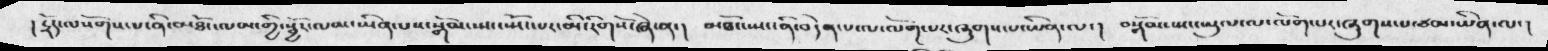།དྲོད་ལསོགས་པ་ནི་མཐོང་ལམ་གྱི་སྦྱོར་ལམ་ཡིན་པས་སྒོམ་སྤང་སྤོང་པར་མི་རིགསོ་ཞེ་ན་།  མཐོང་སྤང་ནི་བདེན་པ་ལ་ལོག་པར་ཞུགས་པ་ཡིན་ལ་།  བསྒོམ་སྤང་ཡུལ་ལ་ལོག་པར་ཞུགས་པ་ཙམ་ཡིན་ལ་།
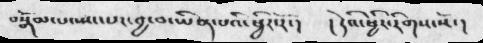བསྒོམ་པ་སྤང་པར་བྱ་བ་ཡིན་པའི་ཕྱིར་རོ་།  །དེའི་ཕྱིར་རིགས་སོ་།
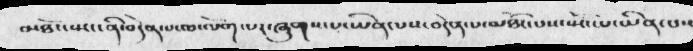མཐོང་སྤང་ནི་བདེན་པ་ལ་ལེག་པར་ཞུགས་པ་ཡིན་པས་བདེན་པ་མཐོང་པས་སྤོང་པ་ཡིན་པ་
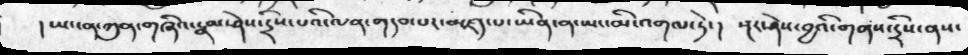།ཡང་ན་ཀུན་གཞིའ་རྣམ་ཤེས་དྲིས་པའི་ལན་གདབ་པར་མཛད་པ་ཡིན་ན་ཡང་མི་འགལ་ཏེ་།  སྔར་ཤེས་བྱའི་གནས་དྲིས་ནས་
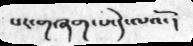པར་གཞག་པ་དེ་ལའོ་།
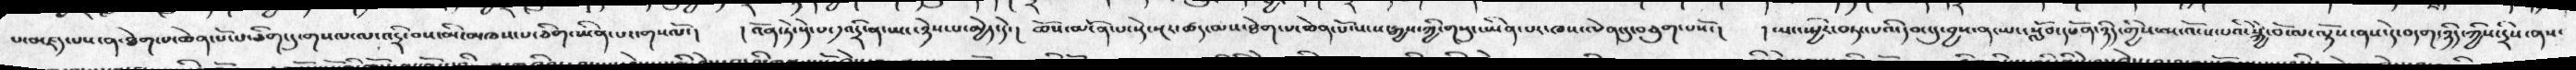པ་མཛད་པས་ན་ཐེག་པ་ཆེན་པོ་པ་ཅིག་དུ་གསལ་ལ་འདྲི་བས་མི་མཁས་པ་ཅིག་ཡིན་པ་གསལོ་།  ། འོན་ཏེ་སྡེ་པ་༡འདྲི་ན་ཡང་ཉེས་པ་མྱེད་དེ་།   ཆོས་མངོན་པ་སྡེ་སྔར་ཚད་མས་ཐེག་པ་ཆེན་པོ་སངས་རྒྱས་ཀྱི་གསུང་ཡིན་པ་ཁས་ལེན་དུ་བཅུག་པོས་།  ། ཡང་སྤྱིར་བཏང་པའི་དམ་དུ་བྱས་ན་ཡང་སློབ་དཔོན་ཉིད་གྱིས་མ་འོངས་པའི་སྐྱེ་བོ་ལ་ལྟོས་ན་དེ་བདག་ཉིད་ཀྱིས་དྲིས་ནས་
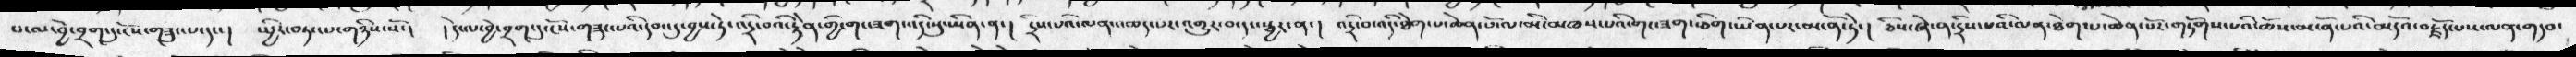པ་ལ་བྱེ་བྲག་དུ་ངོས་གཟུང་པ་དང་།  སྤྱིར་བཏང་པ་གཉིས་སོ་།  །དེ་ལ་བྱེ་བྲག་དུ་ངོས་གཟུང་པའི་དབང་དུ་བྱས་ཏེ་འདྲི་བའི་རྟེན་གྱི་གང་ཟག་དེ་སུ་ཡིན་ན་། དྲིས་པའི་ལན་འཆད་པར་འགྱུར་བ་དང་སྦྱར་ན་། འདྲི་བ་འདི་ཐེག་པ་ཆེན་པོ་ལ་མཁས་པའི་གང་ཟག་ཅིག་ཡིན་པར་མངོན་ཏེ་།  ཅིས་ཞེ་ན་དྲིས་པའི་ལན་ཐེག་པ་ཆེན་པོར་གཏོགས་པའི་ཆོས་མངོན་པའི་མདོའ་བརྗོད་པས་ལན་གདབ་
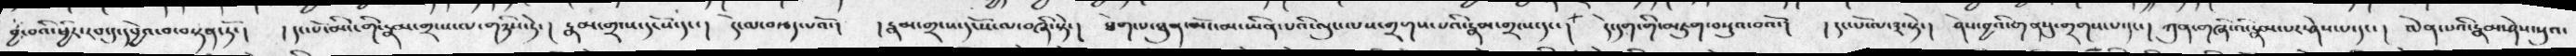བྱ་བའི་ཕྱིར་རབ་དུ་དབྱེའ་བ་བསྟན་ཏོ་།  ། དང་པོ་མིང་གི་རྣམ་གྲངས་ལ་གཉིས་ཏེ་ །  རྣམ་གྲངས་དངོས་དང་།  དེ་མ་བརྩད་པའོ་།  ། རྣམ་གྲངས་དངོས་མ་བཞི་སྟེ་།  ཐེག་པ་ཐུན་མོང་མ་ཡིན་པའི་ལུང་ལས་གྲགས་པའི་རྣམ་གྲངས་དང་།  དེ་དག་གི་མཇུག་བསྡུའ་བའོ་།  ། དང་པོ་ལ་༣་སྟེ་།  ཤེས་བྱའི་གནསུ་གྲགས་པ་དང་།  ཀུན་གཞིའི་རྣམ་པར་ཤེས་པ་དང་།  ལེན་པའི་རྣམ་ཤེས་སུའ་
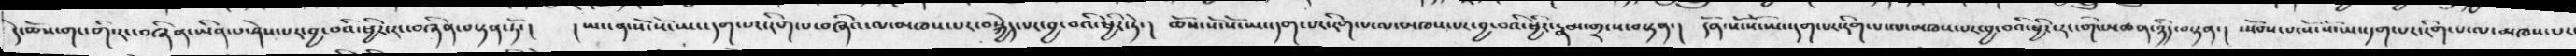དེ་ཆོས་གང་གི་རང་བཞིན་ཡིན་པ་ཤེས་པར་བྱ་བའི་ཕྱིར་རང་བཞིན་བསྟན་ཏོ་།  །ཡང་ན་སོ་སོ་ཡང་དག་པར་རིག་པ་བཞིའ་ལ་མཁས་པར་བསྐྱེད་པར་བྱ་བའི་ཕྱིར་ཏེ་། ཆོས་སོ་སོ་ཡང་དག་པར་རིག་པ་ལ་མཁས་པར་བྱ་བའི་ཕྱིར་རྣམ་གྲངས་བསྟན་། དོན་སོ་སོ་ཡང་དག་པར་རིག་པ་ལ་མཁས་པར་བྱ་བའི་ཕྱིར་རང་གི་མཚན་ཉིད་བསྟན་། སྤོབས་པ་སོ་སོ་ཡང་དག་པར་རིག་པ་ལ་མཁས་པར་
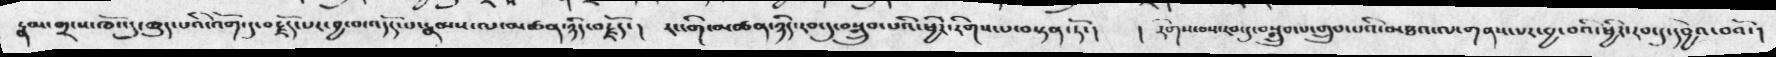རྣམ་གྲངས་ཁོང་དུ་ཆུད་པའི་འོག་དུ་བརྗོད་པར་བྱ་བ་འདོད་པ་རྣམས་ལ་མཚན་ཉིད་བརྗོད་།  རང་གི་མཚན་ཉིད་རབ་དུ་བསྒྲུབ་པའི་ཕྱིར་རིགས་པ་བསྟན་ཏོ་།  ། རིགས་བས་རབ་དུ་བསྒྲུབ་པ་གྲུབ་པའི་མཐའ་ལ་གནས་པར་བྱ་བའི་ཕྱིར་རབ་དུ་དབྱེའ་བའོ་།
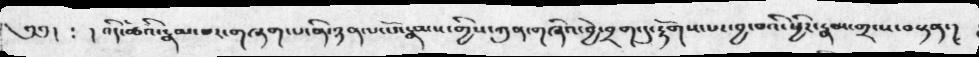༄༅།  ༴  །འདི་ཚེའི་རྣམ་པར་གཞག་པ་ནི་ཉན་པ་པོ་རྣམས་གྱིས་ཀུན་གཞིའ་བྱེ་བྲག་དུ་རྟོགས་པར་བྱ་བའི་ཕྱིར་རྣམ་གྲངས་བསྟན་།
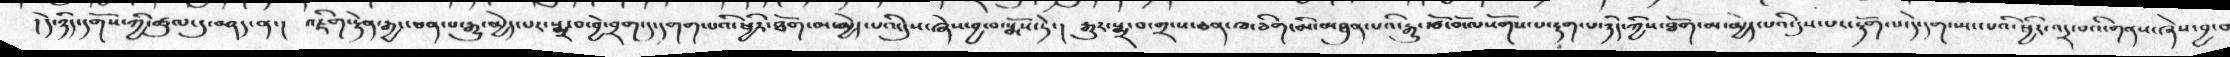།དེ་ཉིད་དགོས་ཀྱི་ཚུལ་དུ་བཤད་ན་། འཇིག་རྟེན་རྒྱ་ཅན་པ་རྒྱུ་མྱེད་པར་སྨྲ་བ་བྱེ་བྲག་དུ་དགག་པའི་ཕྱིར་ཐོག་མ་མེད་པའི་དུས་ཞེས་བྱ་བ་སྨོས་ཏེ་། རྒྱུར་སྨྲ་བ་གྲངས་ཅན་ཁ་ཅིག་མི་མཐུན་པའི་རྒྱུ་རྩོ་བོ་ལསོགས་པ་རྟག་པ་ཉིད་ཀྱིས་ཐོག་མ་མྱེད་པའི་དུས་པར་རྟོག་པ་དེ་དག་སྤང་པའི་ཕྱིར་འདྲ་པའི་གནས་ཞེས་བྱ་བ
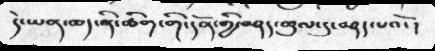དེ་ཡན་ཆད་ནི་ཚིག་གི་དོན་གྱི་བཤད་ཚུལ་དུ་བཤད་པའོ་།
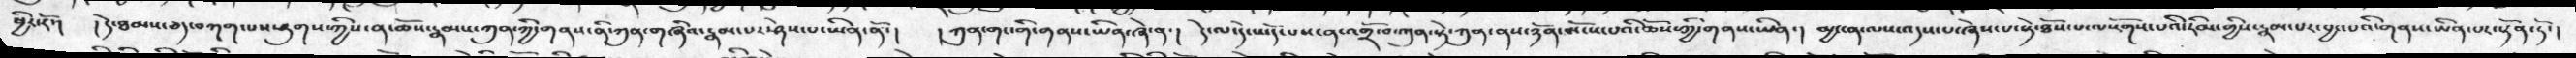ཕྱིར་རོ་།  །དེ་ཐམས་ཅད་བཀག་པས་ཕུགས་ཀྱིས་ན་ཆོས་རྣམས་ཀུན་ཀྱི་གནས་ནི་ཀུན་གཞིའ་རྣམ་པར་ཤེས་པ་ཡིན་ནོ་། ཀུན་གང་གི་གནས་ཡིན་ཞེ་ན་། དེ་ལ་དེ་ཡོད་པས་ན་འགྲོ་བ་ཀུན་སྟེ་ཀུན་ནས་ཉོན་མོངས་པའི་ཆོས་ཀྱི་གནས་ཡིན་།  མྱ་ངན་ལས་འདས་པ་ཞེས་པ་སྟེ་ཐོས་པ་ལསོགས་པའི་རིམ་གྱིས་རྣམ་པར་བྱང་པའི་གནས་ཡིན་པར་སྟོན་ཏོ་།
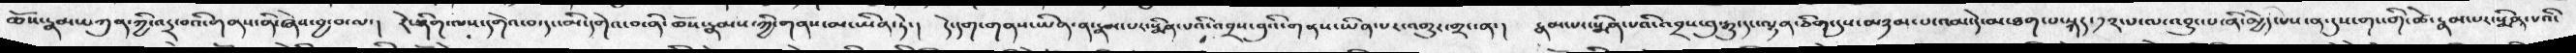ཆོས་རྣམས་ཀུན་ཀྱི་འདྲ་བའི་གནས་ནི་ཞེས་བྱ་བ་ལ་།  རེ་སྡིག་ལས་དགེ་བ་དང་མི་དགེ་བ་ནི་ཆོས་རྣམས་ཀྱི་གནས་མ་ཡིན་ཏེ་། དེ་དག་གནས་ཡིན་ན་རྣམ་པར་སྨིན་པའི་འབྲས་བུའི་གནས་ཡིན་པར་འགྱུར་གྲང་ན་། རྣམ་པར་སྨིན་པའི་འབྲས་བུ་རྒྱུ་དང་ལྷན་ཅིག་དུས་མཉམ་པ་འམ་དེ་མ་ཐག་པ་སྐད་༡༢་པ་ལ་འབྱུང་པ་ནི་མྱེད་པས་ན་དུས་གང་གི་ཚེ་རྣམ་པར་སྨིན་པའི་
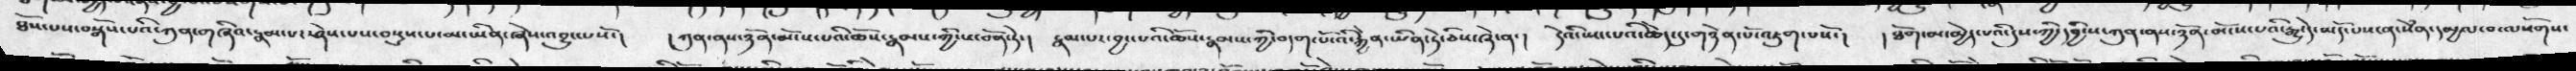ཐོས་པས་བསྒོས་པའི་ཀུན་གཞིའ་རྣམ་པར་ཤེས་པས་བསྡུས་པ་མ་ཡིན་ཞེས་འབྱུང་པསོ་།  ། ཀུན་ནས་ཉོན་མོངས་པའི་ཆོས་རྣམས་ཀྱི་ས་བོན་དེ་།  རྣམ་པར་བྱང་པའི་ཆོས་རྣམས་ཀྱི་བདག་པོ་འི་རྐྱེན་ཡིན་ཏེ་ཅིས་ཞེ་ན་།  དེའི་སྤང་པའི་ཆེད་དུ་གཉེན་པོ་འཇུག་པསོ་།  ། ཐོག་མ་མྱེད་པའི་དུས་ཀྱི་དབྱིངས་ཀུན་ནས་ཉོན་མོངས་པའི་རྒྱུ་དེ་ཡོད་པས་ངན་སེཾན་དམྱལ་བ་ལསོགས་
